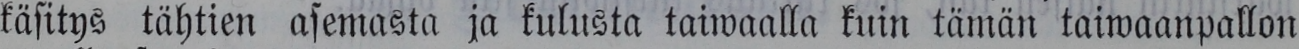käsitys tähtien asemasta ja kulusta taiwaalla kuin tämän taiwaanpallon
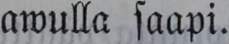awulla saapi.
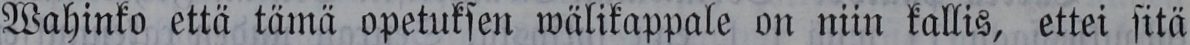Wahinko että tämä opetuksen wälikappale on niin kallis, ettei sitä
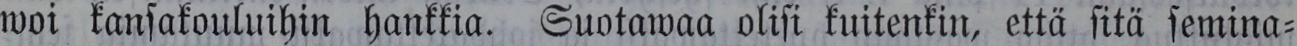woi kansakouluihin hankkia. Suotawaa olisi kuitenkin, että sitä semina-
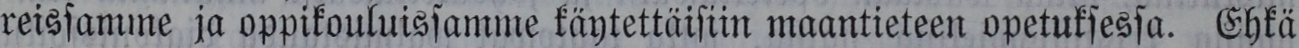reissamme ja oppikouluissamme käytettäisiin maantieteen opetuksessa. Ehkä
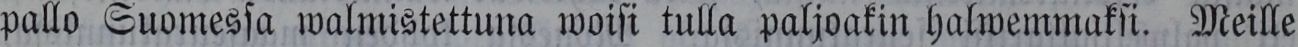pallo Suomessa walmistettuna woisi tulla paljoakin halwemmaksi. Meille
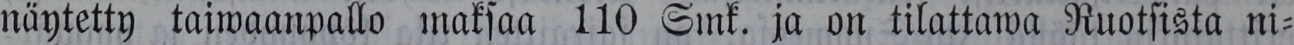näytetty taiwaanpallo maksaa 110 Smk. ja on tilattawa Ruotsista ni-
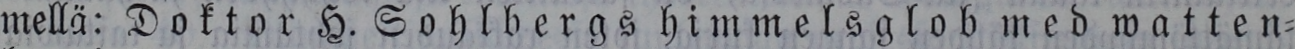mellä : Doktor H. Sohlber gs himmelsglob med watten-
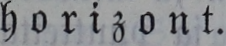horizont.
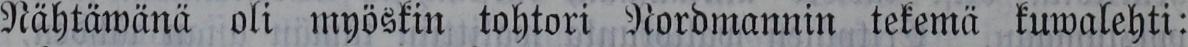Nähtäwänä oli myöskin tohtori Nordmannin tekemä kuwalehti:
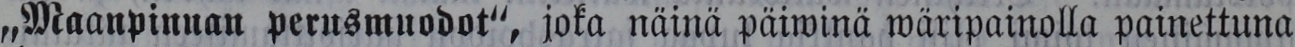„Maanpinnan perusmuodot", joka näinä päiwinä wäripainolla painettuna
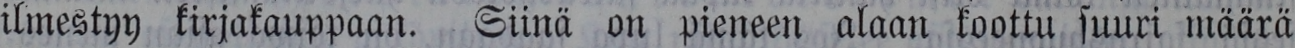ilmestyy kirjakauppaan. Siinä on pieneen alaan koottu suuri määrä
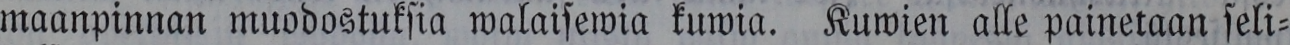maanpinnan muodostuksia walaisewia kuwia. Kuwien alle painetaan seli-
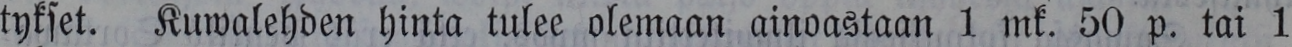tykset. Kuwalehden hinta tulee olemaan ainoastaan 1 mk. 50 p. tai 1
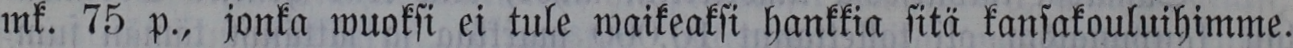mk. 75 p., jonka wuoksi ei tule waikeaksi hankkia sitä kansakouluihimme.
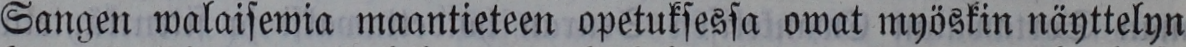Sangen walaisewia maantieteen opetuksessa owat myöskin näyttelyn
